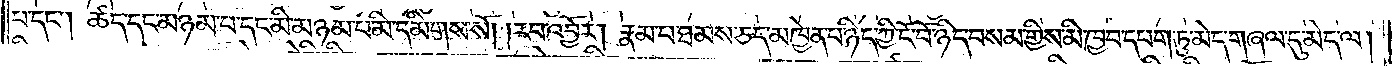པ་དང༌། ཚད་དང་མཉམ་པ་དང་མི་མཉམ་པ་མི་དམིགས་སོ། །རབ་འབྱོར། རྣམ་པ་ཐམས་ཅད་མཁྱེན་པ་ཉིད་ཀྱི་ངོ་བོ་ཉིད་བསམ་གྱིས་མི་ཁྱབ་དཔག་ཏུ་མེད་གཞལ་དུ་མེད་ལ།
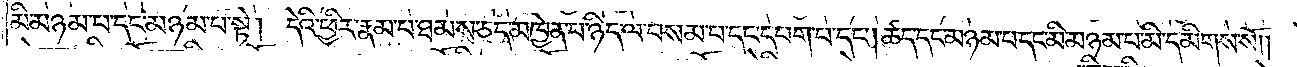མི་མཉམ་པ་དང་མཉམ་པ་སྟེ། དེའི་ཕྱིར་རྣམ་པ་ཐམས་ཅད་མཁྱེན་པ་ཉིད་ལ་བསམ་པ་དང་དཔག་པ་དང༌། ཚད་དང་མཉམ་པ་དང་མི་མཉམ་པ་མི་དམིགས་སོ༎
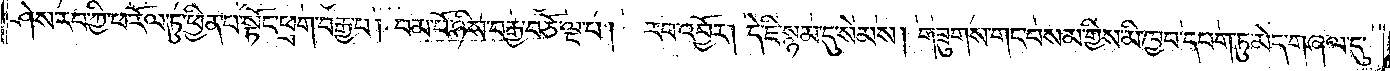ཤེས་རབ་ཀྱི་ཕ་རོལ་ཏུ་ཕྱིན་པ་སྟོང་ཕྲག་བརྒྱ་པ། །བམ་པོ་ཉིས་བརྒྱ་བཅོ་ལྔ་པ། །རབ་འབྱོར། དེ་ཇི་སྙམ་དུ་སེམས། གཟུགས་གང་བསམ་གྱིས་མི་ཁྱབ་དཔག་ཏུ་མེད་གཞལ་དུ་
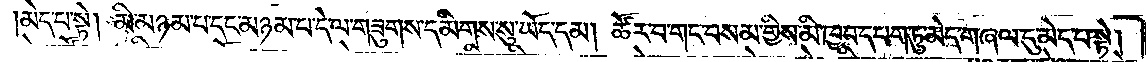མེད་པ་སྟེ། མི་མཉམ་པ་དང་མཉམ་པ་དེ་ལ་གཟུགས་དམིགས་སུ་ཡོད་དམ། ཚོར་བ་གང་བསམ་གྱིས་མི་ཁྱབ་དཔག་ཏུ་མེད་གཞལ་དུ་མེད་པ་སྟེ།
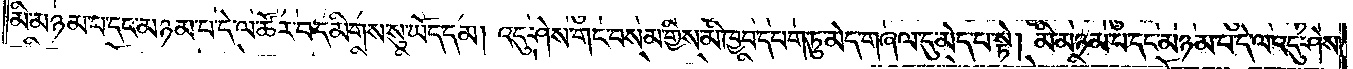མི་མཉམ་པ་དང་མཉམ་པ་དེ་ལ་ཚོར་བ་དམིགས་སུ་ཡོད་དམ། འདུ་ཤེས་གང་བསམ་གྱིས་མི་ཁྱབ་དཔག་ཏུ་མེད་གཞལ་དུ་མེད་པ་སྟེ། མི་མཉམ་པ་དང་མཉམ་པ་དེ་ལ་འདུ་ཤེས་
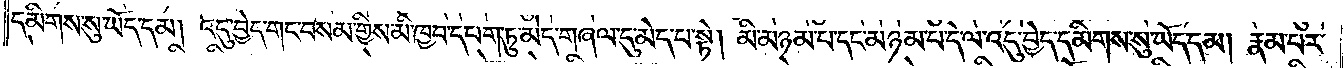དམིགས་སུ་ཡོད་དམ། འདུ་བྱེད་གང་བསམ་གྱིས་མི་ཁྱབ་དཔག་ཏུ་མེད་གཞལ་དུ་མེད་པ་སྟེ། མི་མཉམ་པ་དང་མཉམ་པ་དེ་ལ་འདུ་བྱེད་དམིགས་སུ་ཡོད་དམ། རྣམ་པར་
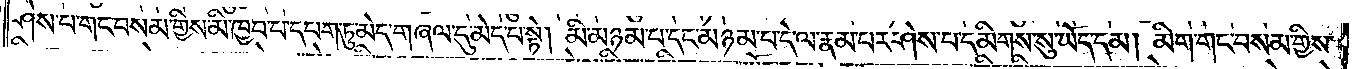ཤེས་པ་གང་བསམ་གྱིས་མི་ཁྱབ་པ་དཔག་ཏུ་མེད་གཞལ་དུ་མེད་པ་སྟེ། མི་མཉམ་པ་དང་མཉམ་པ་དེ་ལ་རྣམ་པར་ཤེས་པ་དམིགས་སུ་ཡོད་དམ། མིག་གང་བསམ་གྱིས་
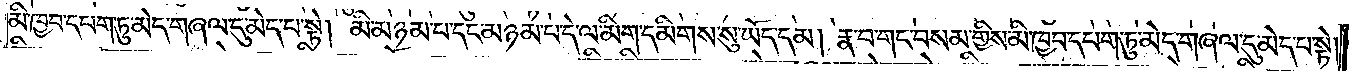མི་ཁྱབ་དཔག་ཏུ་མེད་གཞལ་དུ་མེད་པ་སྟེ། མི་མཉམ་པ་དང་མཉམ་པ་དེ་ལ་མིག་དམིགས་སུ་ཡོད་དམ། རྣ་བ་གང་བསམ་གྱིས་མི་ཁྱབ་དཔག་ཏུ་མེད་གཞལ་དུ་མེད་པ་སྟེ།
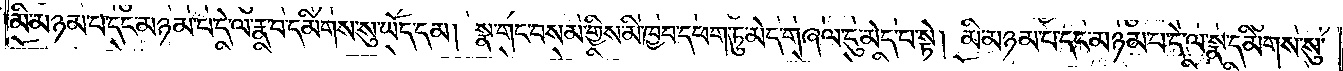མི་མཉམ་པ་དང་མཉམ་པ་དེ་ལ་རྣ་བ་དམིགས་སུ་ཡོད་དམ། སྣ་གང་བསམ་གྱིས་མི་ཁྱབ་དཔག་ཏུ་མེད་གཞལ་དུ་མེད་པ་སྟེ། མི་མཉམ་པ་དང་མཉམ་པ་དེ་ལ་སྣ་དམིགས་སུ་
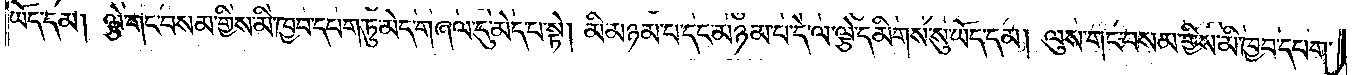ཡོད་དམ། ལྕེ་གང་བསམ་གྱིས་མི་ཁྱབ་དཔག་ཏུ་མེད་གཞལ་དུ་མེད་པ་སྟེ། མི་མཉམ་པ་དང་མཉམ་པ་དེ་ལ་ལྕེ་དམིགས་སུ་ཡོད་དམ། ལུས་གང་བསམ་གྱིས་མི་ཁྱབ་དཔག་
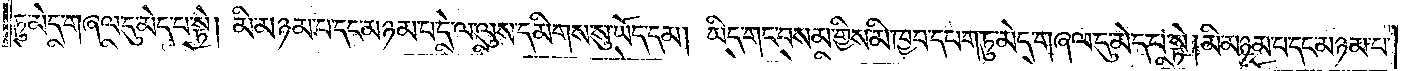ཏུ་མེད་གཞལ་དུ་མེད་པ་སྟེ། མི་མཉམ་པ་དང་མཉམ་པ་དེ་ལ་ལུས་དམིགས་སུ་ཡོད་དམ། ཡིད་གང་བསམ་གྱིས་མི་ཁྱབ་དཔག་ཏུ་མེད་གཞལ་དུ་མེད་པ་སྟེ། མི་མཉམ་པ་དང་མཉམ་པ་
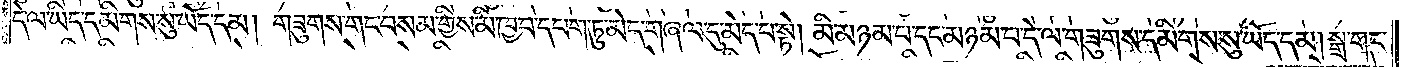དེ་ལ་ཡིད་དམིགས་སུ་ཡོད་དམ། གཟུགས་གང་བསམ་གྱིས་མི་ཁྱབ་དཔག་ཏུ་མེད་གཞལ་དུ་མེད་པ་སྟེ། མི་མཉམ་པ་དང་མཉམ་པ་དེ་ལ་གཟུགས་དམིགས་སུ་ཡོད་དམ། སྒྲ་གང་
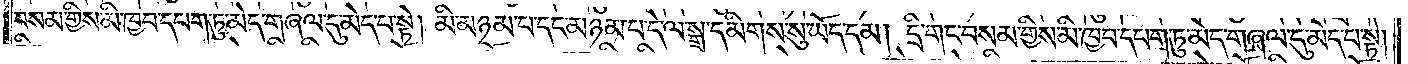བསམ་གྱིས་མི་ཁྱབ་དཔག་ཏུ་མེད་གཞལ་དུ་མེད་པ་སྟེ། མི་མཉམ་པ་དང་མཉམ་པ་དེ་ལ་སྒྲ་དམིགས་སུ་ཡོད་དམ། དྲི་གང་བསམ་གྱིས་མི་ཁྱབ་དཔག་ཏུ་མེད་གཞལ་དུ་མེད་པ་སྟེ།
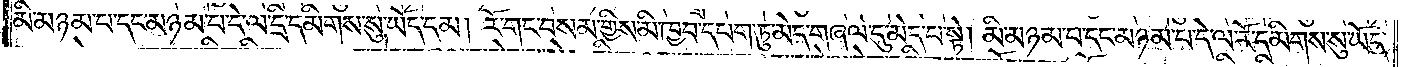མི་མཉམ་པ་དང་མཉམ་པ་དེ་ལ་དྲི་དམིགས་སུ་ཡོད་དམ། རོ་གང་བསམ་གྱིས་མི་ཁྱབ་དཔག་ཏུ་མེད་གཞལ་དུ་མེད་པ་སྟེ། མི་མཉམ་པ་དང་མཉམ་པ་དེ་ལ་རོ་དམིགས་སུ་ཡོད་
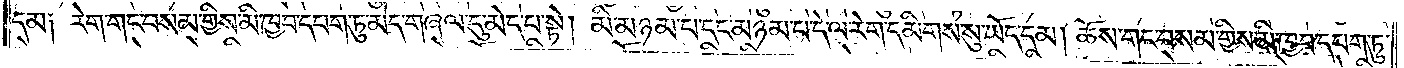དམ༑ རེག་གང་བསམ་གྱིས་མི་ཁྱབ་དཔག་ཏུ་མེད་གཞལ་དུ་མེད་པ་སྟེ། མི་མཉམ་པ་དང་མཉམ་པ་དེ་ལ་རེག་དམིགས་སུ་ཡོད་དམ། ཆོས་གང་བསམ་གྱིས་མི་ཁྱབ་དཔག་ཏུ་
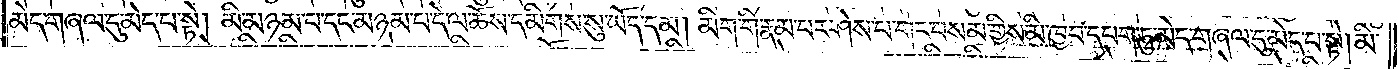མེད་གཞལ་དུ་མེད་པ་སྟེ། མི་མཉམ་པ་དང་མཉམ་པ་དེ་ལ་ཆོས་དམིགས་སུ་ཡོད་དམ། མིག་གི་རྣམ་པར་ཤེས་པ་གང་བསམ་གྱིས་མི་ཁྱབ་དཔག་ཏུ་མེད་གཞལ་དུ་མེད་པ་སྟེ། མི་
